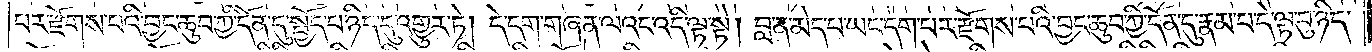པར་རྫོགས་པའི་བྱང་ཆུབ་ཀྱི་དོན་དུ་སྤྱོད་པ་ཉིད་དུ་འགྱུར་ཏེ། དེ་དག་གཞན་ལའང་འདི་ལྟ་སྟེ། བླ་ན་མེད་པ་ཡང་དག་པར་རྫོགས་པའི་བྱང་ཆུབ་ཀྱི་དོན་དུ་རྣམ་པ་དེ་ལྟ་བུ་ཉིད་
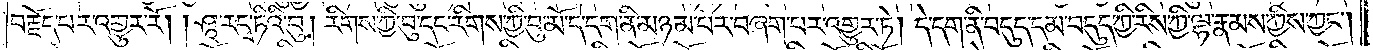བརྗོད་པར་འགྱུར་རོ། །ཤཱ་རདྭ་ཏིའི་བུ། རིགས་ཀྱི་བུ་དང་རིགས་ཀྱི་བུ་མོ་དེ་དག་ནི་མཉམ་པར་བཞག་པར་འགྱུར་ཏེ། དེ་དག་ནི་བདུད་དམ་བདུད་ཀྱི་རིས་ཀྱི་ལྷ་རྣམས་ཀྱིས་ཀྱང༌།
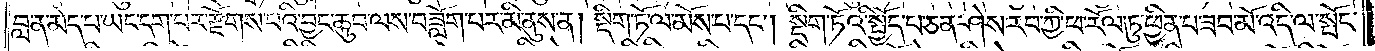བླ་ན་མེད་པ་ཡང་དག་པར་རྫོགས་པའི་བྱང་ཆུབ་ལས་བཟློག་པར་མི་ནུས་ན། སྡིག་ཏོ་ལ་མོས་པ་དང༌། སྡིག་ཏོའི་སྤྱོད་པ་ཅན་ཤེས་རབ་ཀྱི་ཕ་རོལ་ཏུ་ཕྱིན་པ་ཟབ་མོ་འདི་ལ་སྤོང་
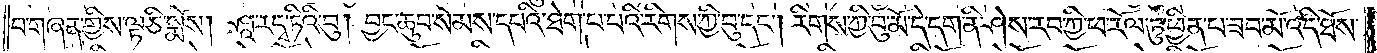བ་གཞན་གྱིས་ལྟ་ཅི་སྨོས། ཤཱ་རདྭ་ཏིའི་བུ། བྱང་ཆུབ་སེམས་དཔའི་ཐེག་པ་པའི་རིགས་ཀྱི་བུ་དང༌། རིགས་ཀྱི་བུ་མོ་དེ་དག་ནི་ཤེས་རབ་ཀྱི་ཕ་རོལ་ཏུ་ཕྱིན་པ་ཟབ་མོ་འདི་ཐོས་
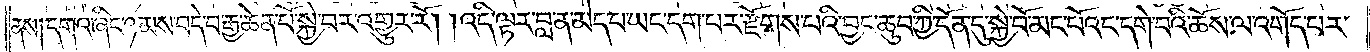ནས། དགའ་ཞིང་ཉམས་བདེ་བརྒྱ་ཆེན་པོ་སྐྱེ་བར་འགྱུར་རོ། །འདི་ལྟར་བླ་ན་མེད་པ་ཡང་དག་པར་རྫོགས་པའི་བྱང་ཆུབ་ཀྱི་དོན་དུ་སྐྱེ་བོ་མང་པོའང་དགེ་བའི་ཆོས་ལ་འགོད་པར་
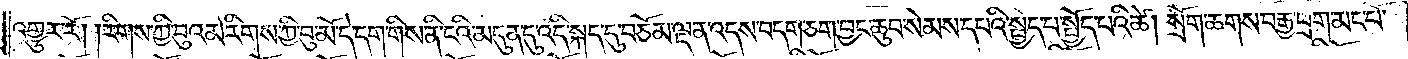འགྱུར་རོ། །རིགས་ཀྱི་བུའམ་རིགས་ཀྱི་བུ་མོ་དེ་དག་གིས་ནི་ངའི་མདུན་དུ་འདི་སྐད་དུ་བཅོམ་ལྡན་འདས་བདག་ཅག་བྱང་ཆུབ་སེམས་དཔའི་སྤྱད་པ་སྤྱོད་པའི་ཚེ། སྲོག་ཆགས་བརྒྱ་ཕྲག་མང་པོ་
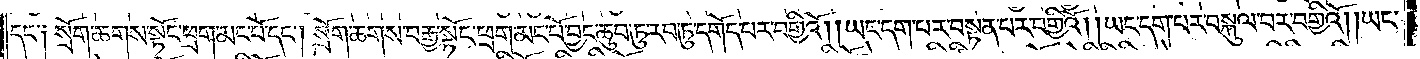དང་༑ སྲོག་ཆགས་སྟོང་ཕྲག་མང་པོ་དང༌། སྲོག་ཆགས་བརྒྱ་སྟོང་ཕྲག་མང་པོ་བྱང་ཆུབ་ཏུ་རབ་ཏུ་དགོད་པར་བགྱིའོ། །ཡང་དག་པར་བསྟན་པར་བགྱིའོ། །ཡང་དག་པར་བསྐུལ་བར་བགྱིའོ། །ཡང་
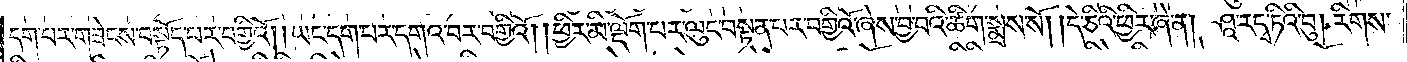དག་པར་གཟེངས་བསྟོད་པར་བགྱིའོ། །ཡང་དག་པར་དགའ་བར་བགྱིའོ། །ཕྱིར་མི་ལྡོག་པར་ལུང་བསྟན་པར་བགྱིའོ་ཞེས་བྱ་བའི་ཚིག་སྨྲས་སོ། །དེ་ཅིའི་ཕྱིར་ཞེ་ན། ཤཱ་ར་དྭ་ཏིའི་བུ། རིགས་
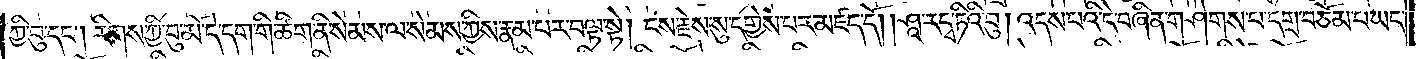ཀྱི་བུ་དང༌། རིགས་ཀྱི་བུ་མོ་དེ་དག་གི་ཚིག་ནི་སེམས་ལ་སེམས་ཀྱིས་རྣམ་པར་བལྟ་སྟེ། ངས་རྗེས་སུ་དགྱེས་པར་མཛད་དོ། །ཤཱ་ར་དྭ་ཏིའི་བུ། འདས་པའི་དེ་བཞིན་གཤེགས་པ་དགྲ་བཅོམ་པ་ཡང་
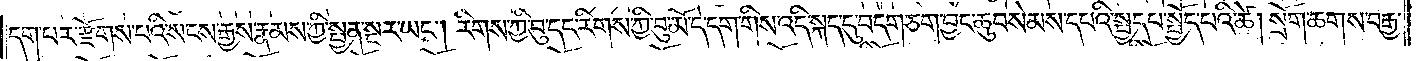དག་པར་རྫོགས་པའི་སངས་རྒྱས་རྣམས་ཀྱི་སྤྱན་སྔར་ཡང༌། རིགས་ཀྱི་བུ་དང་རིགས་ཀྱི་བུ་མོ་དེ་དག་གིས་འདི་སྐད་དུ་བདག་ཅག་བྱང་ཆུབ་སེམས་དཔའི་སྤྱད་པ་སྤྱོད་པའི་ཚེ། སྲོག་ཆགས་བརྒྱ་
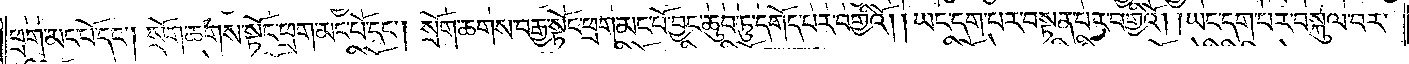ཕྲག་མང་པོ་དང༌། སྲོག་ཆགས་སྟོང་ཕྲག་མང་པོ་དང༌། སྲོག་ཆགས་བརྒྱ་སྟོང་ཕྲག་མང་པོ་བྱང་ཆུབ་ཏུ་དགོད་པར་བགྱིའོ། །ཡང་དག་པར་བསྟན་པར་བགྱིའོ། །ཡང་དག་པར་བསྐུལ་བར་
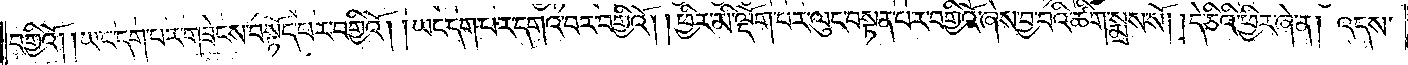བགྱིའོ། །ཡང་དག་པར་གཟེངས་བསྟོད་པར་བགྱིའོ། །ཡང་དག་པར་དགའ་བར་བགྱིའོ། །ཕྱིར་མི་ལྡོག་པར་ལུང་བསྟན་པར་བགྱིའོ་ཞེས་བྱ་བའི་ཚིག་སྨྲས་སོ། །དེ་ཅིའི་ཕྱིར་ཞེ་ན། འདས་
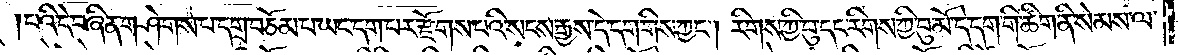པའི་དེ་བཞིན་གཤེགས་པ་དགྲ་བཅོམ་པ་ཡང་དག་པར་རྫོགས་པའི་སངས་རྒྱས་དེ་དག་གིས་ཀྱང༌། རིགས་ཀྱི་བུ་དང་རིགས་ཀྱི་བུ་མོ་དེ་དག་གི་ཚིག་ནི་སེམས་ལ་
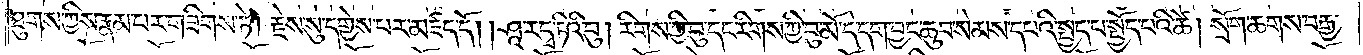ཐུགས་ཀྱིས་རྣམ་པར་གཟིགས་ཏེ། རྗེས་སུ་དགྱེས་པར་མཛད་དོ། །ཤཱ་ར་དྭ་ཏིའི་བུ། རིགས་ཀྱི་བུ་དང་རིགས་ཀྱི་བུ་མོ་དེ་དག་བྱང་ཆུབ་སེམས་དཔའི་སྤྱད་པ་སྤྱོད་པའི་ཚེ། སྲོག་ཆགས་བརྒྱ་
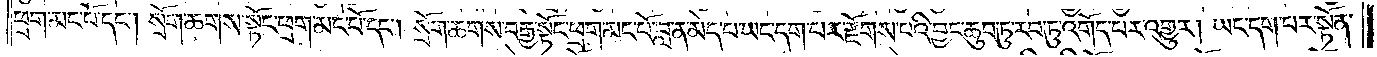ཕྲག་མང་པོ་དང༌། སྲོག་ཆགས་སྟོང་ཕྲག་མང་པོ་དང༌། སྲོག་ཆགས་བརྒྱ་སྟོང་ཕྲག་མང་པོ་བླ་ན་མེད་པ་ཡང་དག་པར་རྫོགས་པའི་བྱང་ཆུབ་ཏུ་རབ་ཏུ་འགོད་པར་འགྱུར། ཡང་དག་པར་སྟོན་
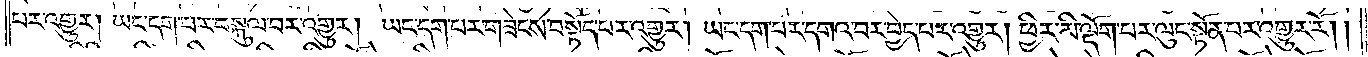པར་འགྱུར། ཡང་དག་པར་བསྐུལ་བར་འགྱུར། ཡང་དག་པར་གཟེངས་བསྟོད་པར་འགྱུར། ཡང་དག་པར་དགའ་བར་བྱེད་པར་འགྱུར། ཕྱིར་མི་ལྡོག་པར་ལུང་སྟོན་པར་འགྱུར་རོ། །
